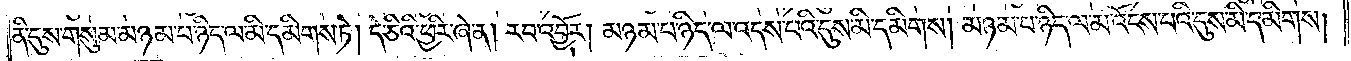ནི་དུས་གསུམ་མཉམ་པ་ཉིད་ལ་མི་དམིགས་ཏེ། དེ་ཅིའི་ཕྱིར་ཞེ་ན། རབ་འབྱོར། མཉམ་པ་ཉིད་ལ་འདས་པའི་དུས་མི་དམིགས། མཉམ་པ་ཉིད་ལ་མ་འོངས་པའི་དུས་མི་དམིགས།
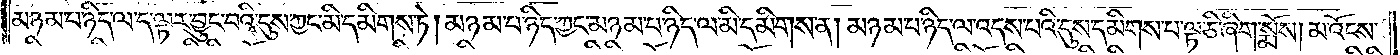མཉམ་པ་ཉིད་ལ་ད་ལྟར་བྱུང་བའི་དུས་ཀྱང་མི་དམིགས་ཏེ། མཉམ་པ་ཉིད་ཀྱང་མཉམ་པ་ཉིད་ལ་མི་དམིགས་ན། མཉམ་པ་ཉིད་ལ་འདས་པའི་དུས་དམིགས་པ་ལྟ་ཅི་ཞིག་སྨོས། མ་འོངས་
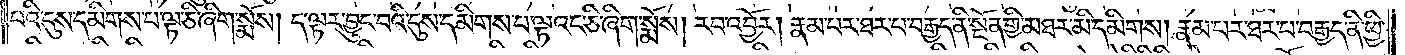པའི་དུས་དམིགས་པ་ལྟ་ཅི་ཞིག་སྨོས། ད་ལྟར་བྱུང་བའི་དུས་དམིགས་པ་ལྟའང་ཅི་ཞིག་སྨོས། རབ་འབྱོར། རྣམ་པར་ཐར་པ་བརྒྱད་ནི་སྔོན་གྱི་མཐར་མི་དམིགས། རྣམ་པར་ཐར་པ་བརྒྱད་ནི་ཕྱི་
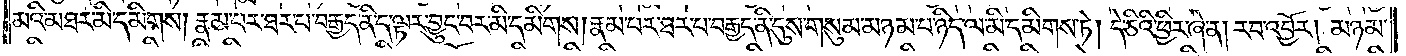མའི་མཐར་མི་དམིགས། རྣམ་པར་ཐར་པ་བརྒྱད་ནི་ད་ལྟར་བྱུང་བར་མི་དམིགས། རྣམ་པར་ཐར་པ་བརྒྱད་ནི་དུས་གསུམ་མཉམ་པ་ཉིད་ལ་མི་དམིགས་ཏེ། དེ་ཅིའི་ཕྱིར་དེ་ན། རབ་འབྱོར། མཉམ་
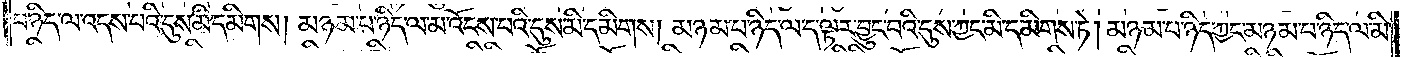པ་ཉིད་ལ་འདས་པའི་དུས་མི་དམིགས། མཉམ་པ་ཉིད་ལ་མ་འོངས་པའི་དུས་མི་དམིགས། མཉམ་པ་ཉིད་ལ་ད་ལྟར་བྱུང་བའི་དུས་ཀྱང་མི་དམིགས་ཏེ། མཉམ་པ་ཉིད་ཀྱང་མཉམ་པ་ཉིད་ལ་མི་
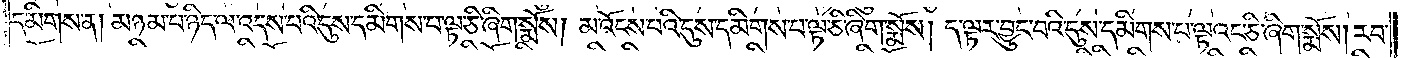དམིགས་ན། མཉམ་པ་ཉིད་ལ་འདས་པའི་དུས་དམིགས་པ་ལྟ་ཅི་ཞིག་སྨོས། མ་འོངས་པའི་དུས་དམིགས་པ་ལྟ་ཅི་ཞིག་སྨོས། ད་ལྟར་བྱུང་བའི་དུས་དམིགས་བ་ལྟའང་ཅི་ཞིག་སྨོས། རབ་
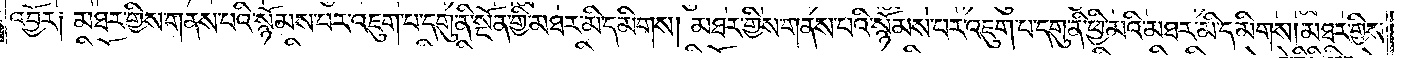འབྱོར། མཐར་གྱིས་གནས་པའི་སྙོམས་པར་འཇུག་པ་དགུ་ནི་སྔོན་གྱི་མཐར་མི་དམིགས། མཐར་གྱིས་གནས་པའི་སྙོམས་པར་འཇུག་པ་དགུ་ནི་ཕྱི་མའི་མཐར་མི་དམིགས། མཐར་གྱིས་
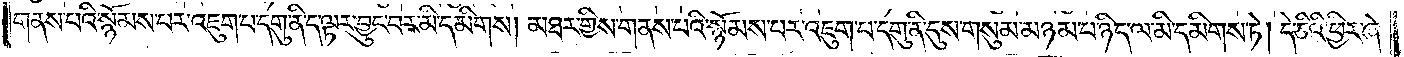གནས་པའི་སྙོམས་པར་འཇུག་པ་དགུ་ནི་ད་ལྟར་བྱུང་བར་མི་དམིགས། མཐར་གྱིས་གནས་པའི་སྙོམས་པར་འཇུག་པ་དགུ་ནི་དུས་གསུམ་མཉམ་པ་ཉིད་ལ་མི་དམིགས་ཏེ། དེ་ཅིའི་ཕྱིར་ཞེ་
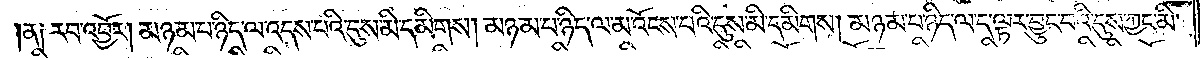ན། རབ་འབྱོར། མཉམ་པ་ཉིད་ལ་འདས་པའི་དུས་མི་དམིགས། མཉམ་པ་ཉིད་ལ་མ་འོངས་པའི་དུས་མི་དམིགས། མཉམ་པ་ཉིད་ལ་ད་ལྟར་བྱུང་བའི་དུས་ཀྱང་མི་
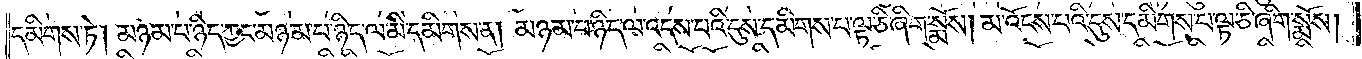དམིགས་ཏེ། མཉམ་པ་ཉིད་ཀྱང་མཉམ་པ་ཉིད་ལ་མི་དམིགས་ན། མཉམ་པ་ཉིད་ལ་འདས་པའི་དུས་དམིགས་པ་ལྟ་ཅི་ཞིག་སྨོས། མ་འོངས་པའི་དུས་དམིགས་པ་ལྟ་ཅི་ཞིག་སྨོས།
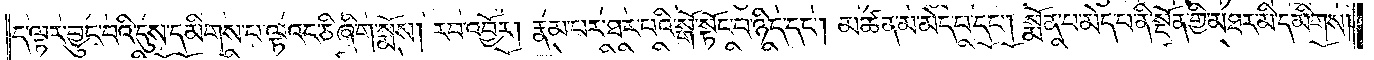ད་ལྟར་བྱུང་བའི་དུས་དམིགས་པ་ལྟའང་ཅི་ཞིག་སྨོས། རབ་འབྱོར། རྣམ་པར་ཐར་བའི་སྒོ་སྟོང་པ་ཉིད་དང༌། མཚན་མ་མེད་པ་དང༌། སྨོན་པ་མེད་པ་ནི་སྔོན་གྱི་མཐར་མི་དམིགས།
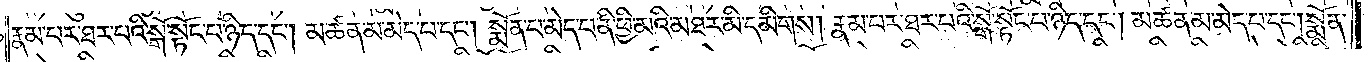རྣམ་པར་ཐར་པའི་སྒོ་སྟོང་པ་ཉིད་དང༌། མཚན་མ་མེད་པ་དང༌། སྨོན་པ་མེད་པ་ནི་ཕྱི་མའི་མཐར་མི་དམིགས། རྣམ་པར་ཐར་པའི་སྒོ་སྟོང་པ་ཉིད་དང༌། མཚན་མ་མེད་པ་དང༌། སྨོན་
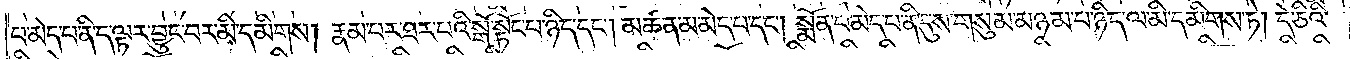པ་མེད་པ་ནི་ད་ལྟར་བྱུང་བར་མི་དམིགས། རྣམ་པར་ཐར་བའི་སྒོ་སྟོང་པ་ཉིད་དང༌། མཚན་མ་མེད་པ་དང༌། སྨོན་པ་མེད་པ་ནི་དུས་གསུམ་མཉམ་པ་ཉིད་ལ་མི་དམིགས་ཏེ། དེ་ཅིའི་
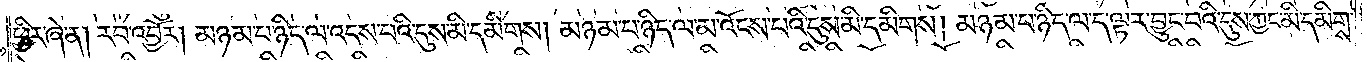ཕྱིར་ཞེ་ན། རབ་འབྱོར། མཉམ་པ་ཉིད་ལ་འདས་པའི་དུས་མི་དམིགས། མཉམ་པ་ཉིད་ལ་མ་འོངས་པའི་དུས་མི་དམིགས། མཉམ་པ་ཉིད་ལ་ད་ལྟར་བྱུང་བའི་དུས་ཀྱང་མི་དམིགས་
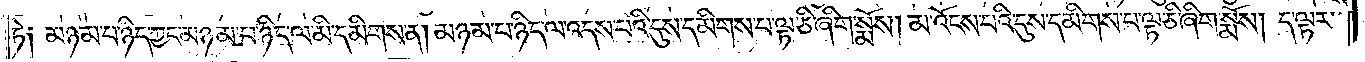ཏེ། མཉམ་པ་ཉིད་ཀྱང་མཉམ་པ་ཉིད་ལ་མི་དམིགས་ན། མཉམ་པ་ཉིད་ལ་འདས་པའི་དུས་དམིགས་པ་ལྟ་ཅི་ཞིག་སྨོས། མ་འོངས་པའི་དུས་དམིགས་པ་ལྟ་ཅི་ཞིག་སྨོས། ད་ལྟར་
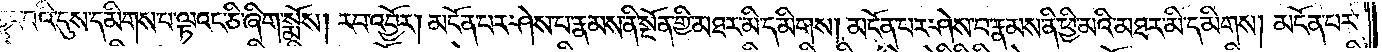བྱུང་བའི་དུས་དམིགས་པ་ལྟའང་ཅི་ཞིག་སྨོས། རབ་འབྱོར། མངོན་པར་ཤེས་པ་རྣམས་ནི་སྔོན་གྱི་མཐར་མི་དམིགས། མངོན་པར་ཤེས་པ་རྣམས་ནི་ཕྱི་མའི་མཐར་མི་དམིགས། མངོན་པར་
